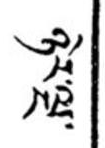ཉེར་ལྔ་
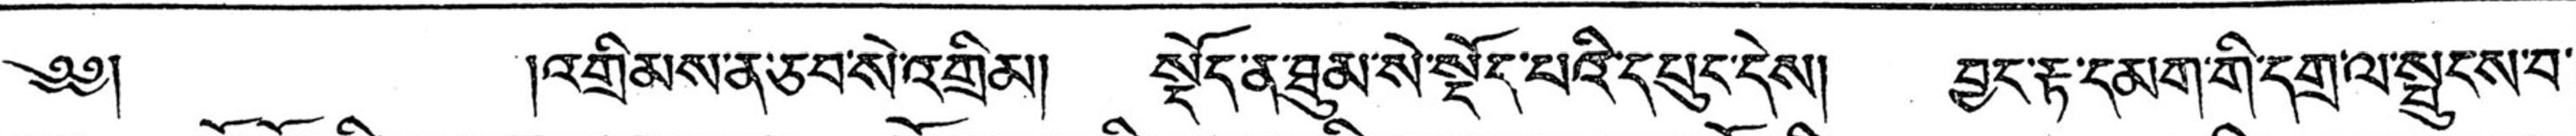༄༅། །འགྲིམས་ན་ཅབ་སེ་འགྲིམ། སྡོད་ན་ཐུམ་སེ་སྡོད་པའི་དཔུང་དེས། བྱང་རྟ་དམག་གི་དགྲ་ལ་སྤུངས་བ་
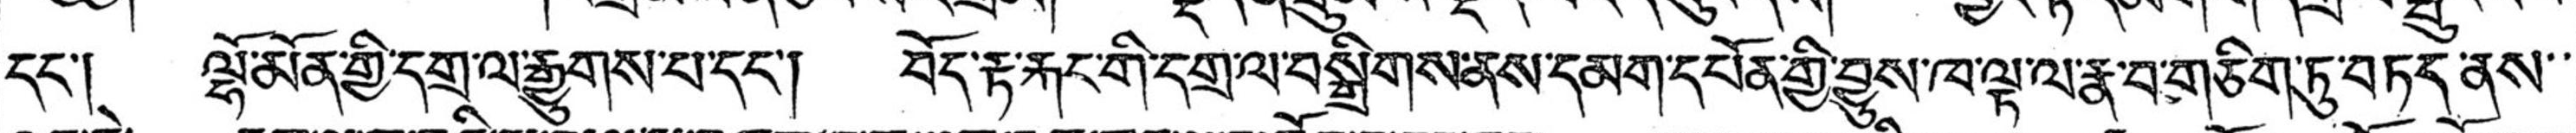དང་། ལྷོ་མོན་གྱི་དགྲ་ལ་རྒྱུགས་པ་དང་། བོད་རྟ་རྐང་གི་དགྲ་ལ་བསྒྲིགས་ནས་དམག་དཔོན་གྱི་བྱས་ཁ་ལྟ་ལ་རྣ་བ་གཅིག་ཏུ་བཏད་ནས་་
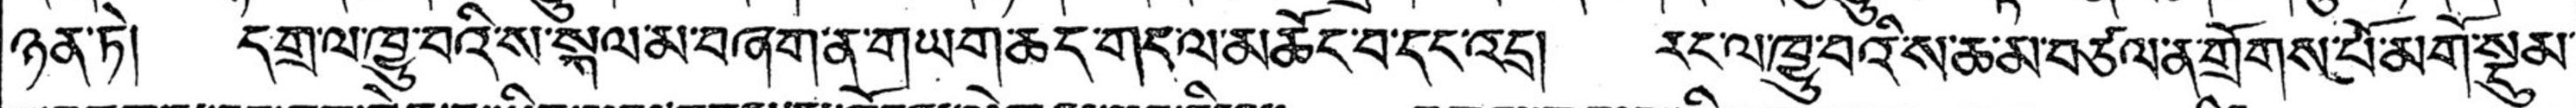ཉན་ཏེ། དགྲ་ལ་ཁྱུ་བའི་ས་སྐལ་མ་བཞག་ན་གཡག་ཆད་གང་ལ་མཆོང་བ་དང་འདྲ། རང་ལ་ཁྱུ་བའི་ས་ཆ་མ་བཙལ་ན་གྲོགས་པོ་མགོ་སྡུམ་
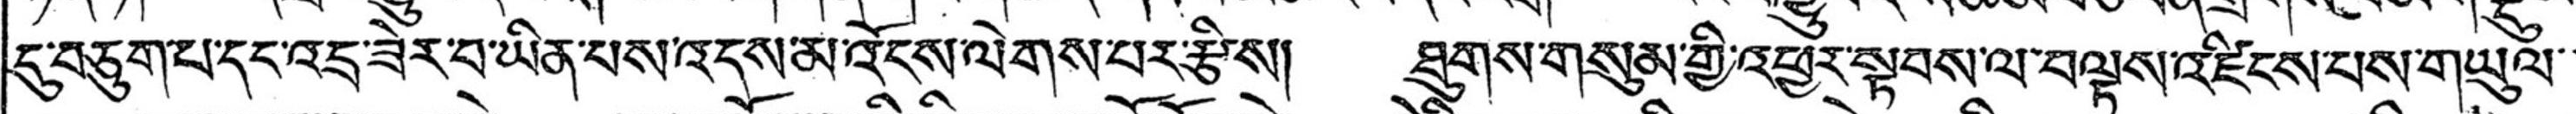དུ་བཅུག་པ་དང་འདྲ་ཟེར་བ་ཡིན་པས་འདས་མ་འོངས་ལེགས་པར་རྩིས། ཐུགས་གསུམ་གྱི་འཕྱར་སྟབས་ལ་བལྟས་འཛིངས་པས་གཡུལ་་
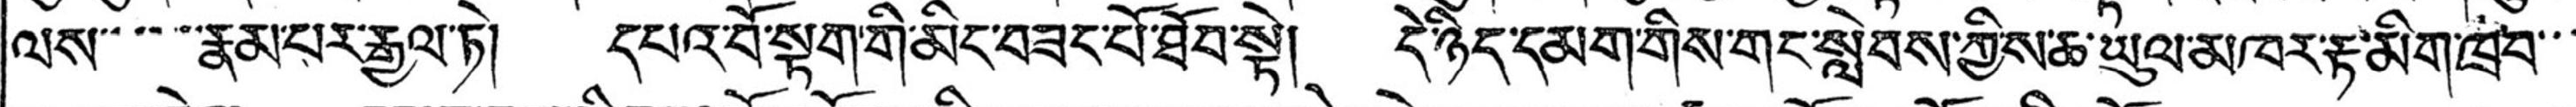ལས་་་་་རྣམ་པར་རྒྱལ་ཏེ། དཔའ་བོ་སྟག་གི་མིང་བཟང་པོ་ཐོབ་སྟེ། དེ་ཉིད་དམག་གིས་གང་སླེབས་ཀྱིས་ཆ་ཡུལ་མཁར་རྟ་མིག་ཁྲབ་་་་
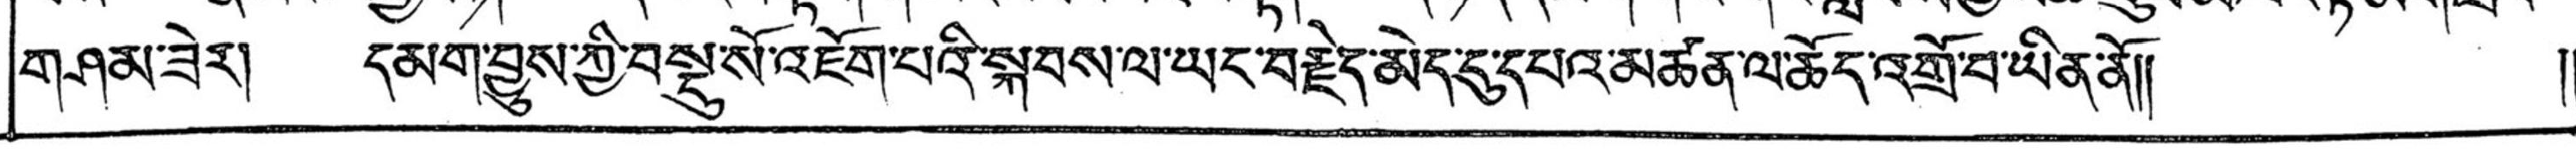གཤམ་ཟེར། དམག་བྱུས་ཀྱི་བསྡུ་སོ་འཇོག་པའི་སྐབས་ལ་ཡང་བརྗེད་མེད་དུ་དཔའ་མཚན་ལ་ཆོད་འགྲོ་བ་ཡིན་ནོ།།  །།
